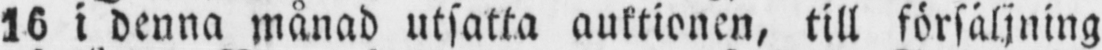16 i denna månad utsatta auktionen, till försäljning
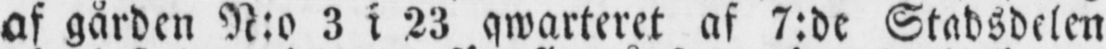af gården N:o 3 i 23 qwarteret af 7:de Stadsdelen
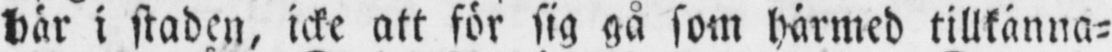här i staden, icke att för sig gå som härmed tillkänna-
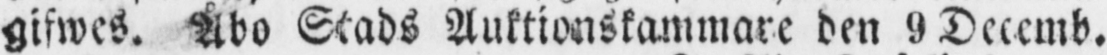gifwes. Åbo Stads Auktioskammare den 9 Decemb.
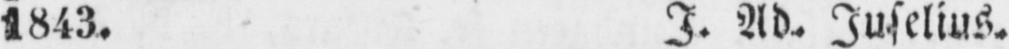1843. I. Ad. Juselius.
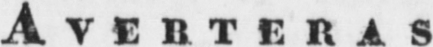AVERTERAS
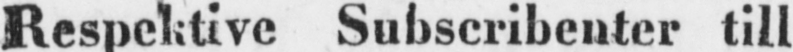Respektive Subscribenter till Borgerliga
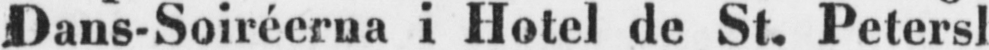Dans-Soiréerna i Hotel de St. Petersburg,
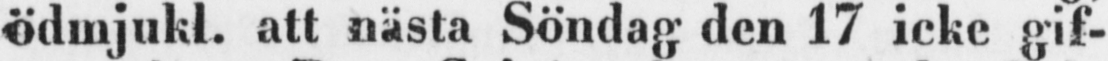ödmjukl. att nästa Söndag den 17 icke gif-
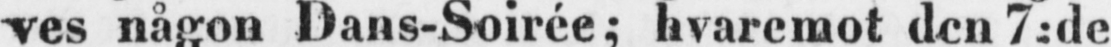ves någon Dans-Soirée; hvaremot den 7:nde
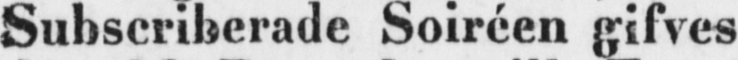Subscriberade Soiréen gifves Annandag Jul
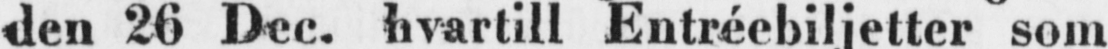den 26 Dec. hvartill Entréebiljetter som
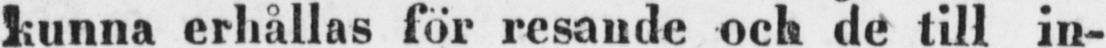kunna erhållas för resande och de till in-
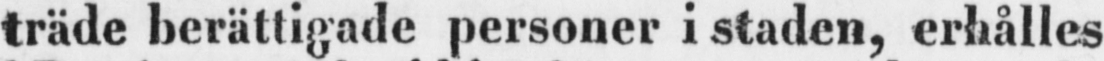träde berättigade personer i staden, erhålles
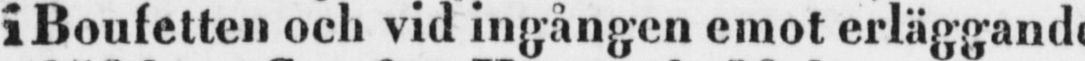i Boufetten och vid ingången emot erläggande
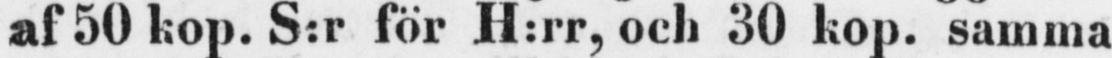af 50 kop. S:r för H:rr, och 30 kop. samma
